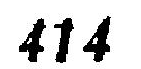414
